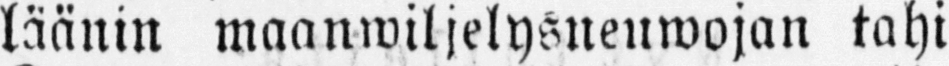läänin maanwiljelysnenwojan tahi
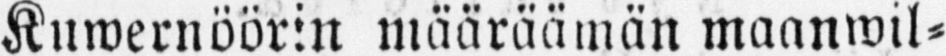Kuwernöörin määräämän maanwil-
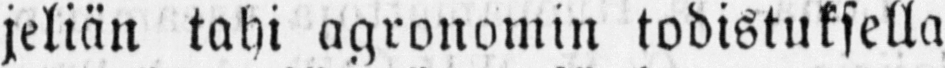jeliän tahi agronomin todistuksella
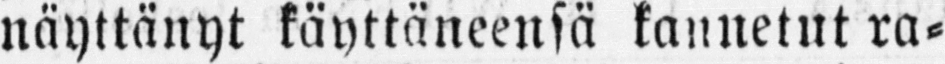näyttänyt käyttäneensä kannetut ra-
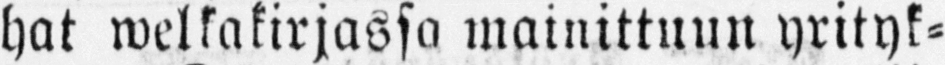hat welkakirjassa mainittuun yrityk-
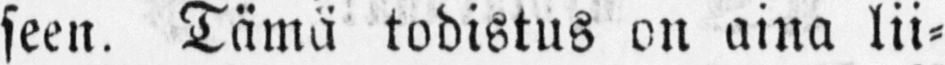seen. Tämä todistus on aina lii-
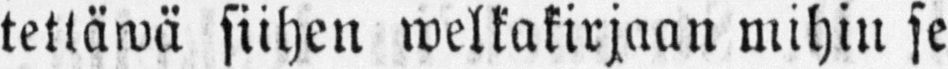tettäwä siihen welkakirjaan mihin se
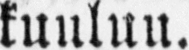kuuluu.
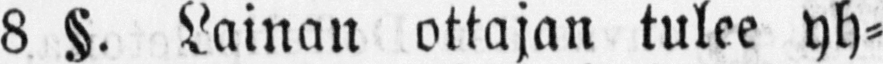8 §. Lainan ottajan tulee yh-
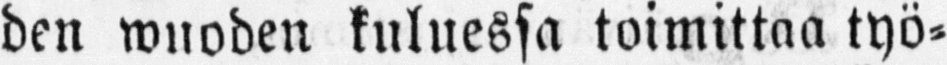den wuoden kuluessa toimittaa työ-
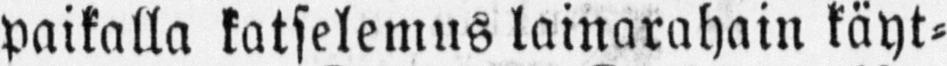paikalla katselemus lainarahan: käyt-
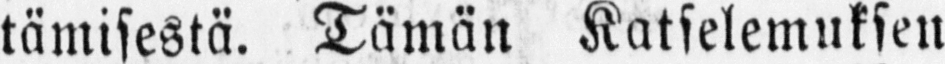tämisestä. Tämän Katselemuksen
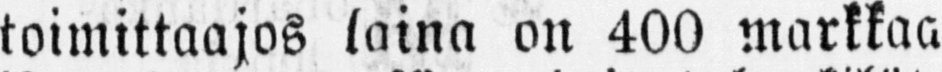toimittaa jos laina on 400 markkaa
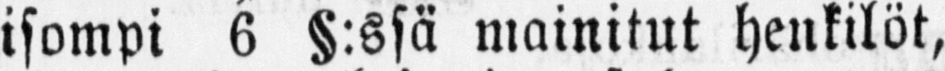isompi 6 §:ssä mainitut henkilöt,
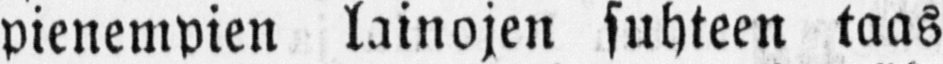pienempien lainojen suhteen taas
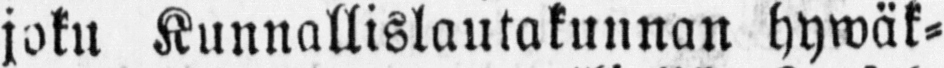joku Kunnallislautakunnan hywäk-
